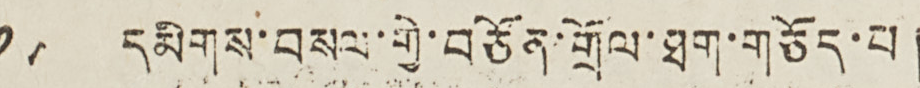༡༥ དམིགས་བསལ་གྱི་བཅོན་གྲོལ་ཐག་གཅོད་པ།
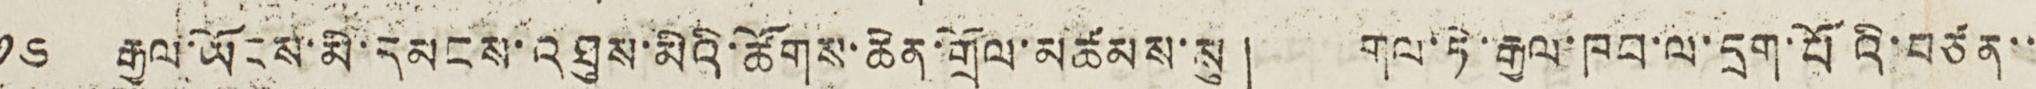༡༦ རྒྱལ་ཡོངས་མི་དམངས་འཐུས་མིའི་ཚོགས་ཆེན་གྲོལ་མཚམས་སུ། གལ་ཏེ་རྒྱལ་ཁབ་ལ་དྲག་པོའི་བཙན་་་
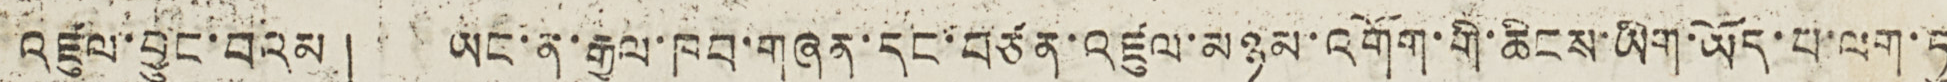འཛུལ་བྱུང་བའམ། ཡང་ན་རྒྱལ་ཁབ་གཞན་དང་བཙན་འཛུལ་མཉམ་འགོག་གི་ཆིངས་ཡིག་ཡོད་པ་ལག་ཏུ
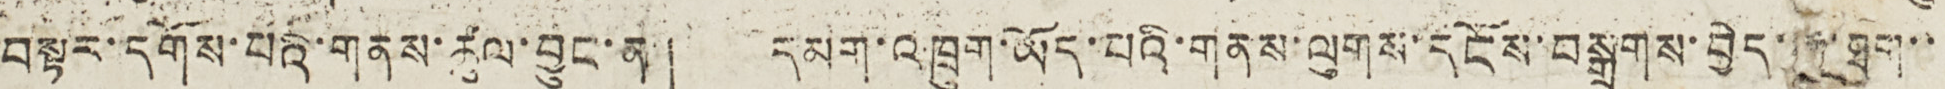བསྟར་དགོས་པའི་གནས་ཚུལ་བྱུང་ན། དམག་འཁྲུག་ཡོད་པའི་གནས་ལུགས་དངོས་བསྒྲགས་བྱེད་ ་ཐག་་
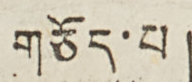གཅོད་པ།
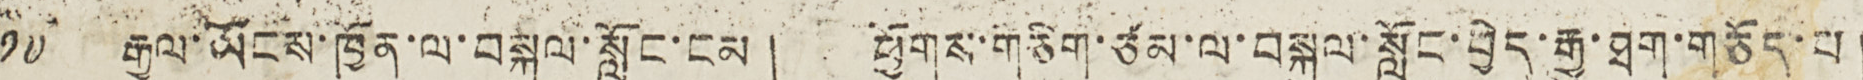༡༧ རྒྱལ་ཡོངས་ཁྱོན་ལ་བསྐུལ་སློང་ངམ། ཕྱོགས་གཅིག་ཙམ་ལ་བསྐུལ་སློང་བྱེད་རྒྱུ་ཐག་གཅོད་པ།
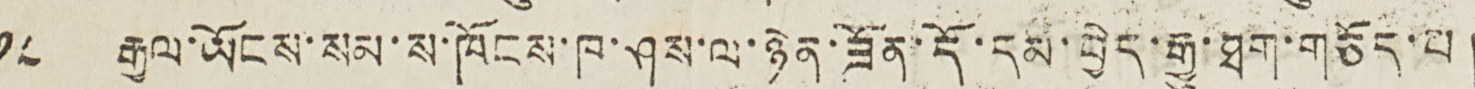༡༨ རྒྱལ་ཡོངས་སམ་ས་ཁོངས་ཁ་ཤས་ལ་ཉེན་ཟོན་དོ་དམ་བྱེད་རྒྱུ་ཐག་གཅོད་པ།
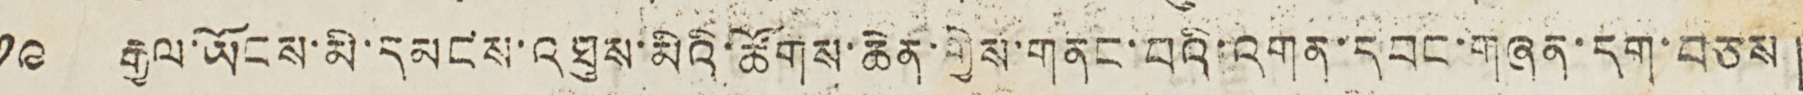༡༩ རྒྱལ་ཡོངས་མི་དམངས་འཐུས་མིའི་ཚོགས་ཆེན་གྱིས་གནང་བའི་འགན་དབང་གཞན་དག་བཅས།
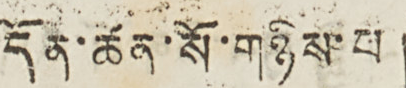དོན་ཚན་སོ་གཉིས་པ།
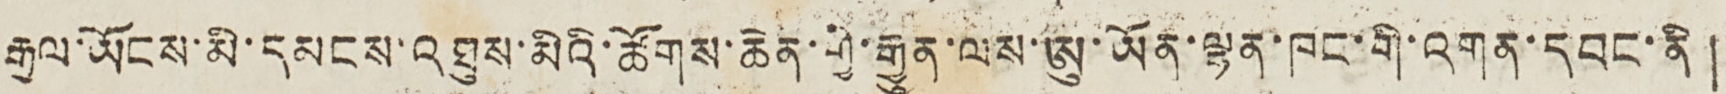རྒྱལ་ཡོངས་མི་དམངས་འཐུས་མིའི་ཚོགས་ཆེན་གྱི་རྒྱུན་ལས་ཨུ་ཡོན་ལྷན་ཁང་གི་འགན་དབང་ནི།
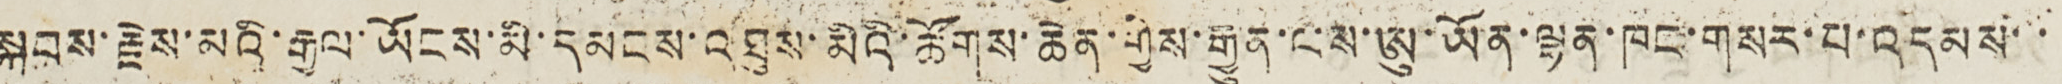སྐབས་རྗེས་མའི་རྒྱལ་ཡོངས་མི་དམངས་འཐུས་མིའི་ཚོགས་ཆེན་གྱིས་རྒྱུན་ལས་ཨུ་ཡོན་ལྷན་ཁང་གསར་པ་འདམས་་
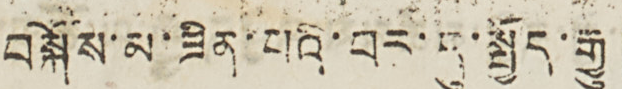བསྐོས་མ་ཟིན་པའི་བར་དུ་སྤྱོད་རྒྱུ།
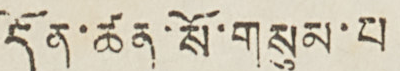དོན་ཚན་སོ་གསུམ་པ།
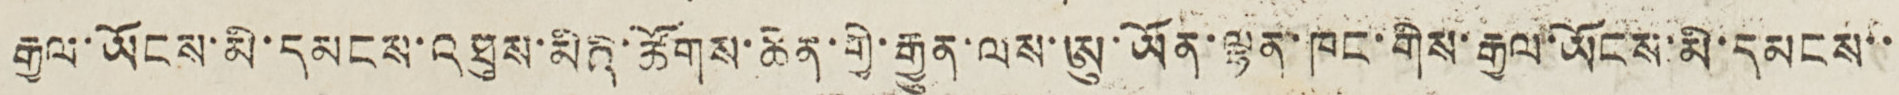རྒྱལ་ཡོངས་མི་དམངས་འཐུས་མིའི་ཚོགས་ཆེན་གྱི་རྒྱུན་ལས་ཨུ་ཡོན་ལྷན་ཁང་གིས་རྒྱལ་ཡོངས་མི་དམངས་་
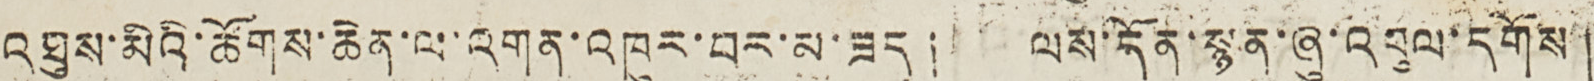འཐུས་མིའི་ཚོགས་ཆེན་ལ་འགན་འཁུར་བར་མ་ཟད། ལས་དོན་སྙན་ཞུ་འབུལ་དགོས།
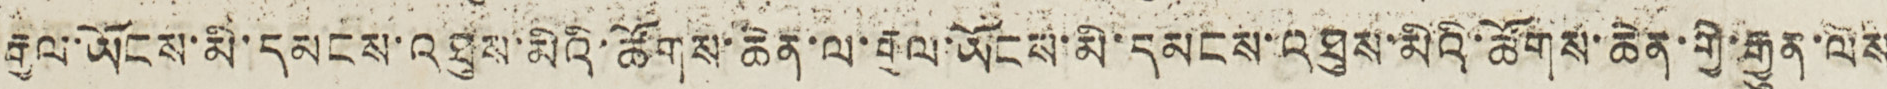རྒྱལ་ཡོངས་མི་དམངས་འཐུས་མིའི་ཚོགས་ཆེན་ལ་རྒྱལ་ཡོངས་མི་དམངས་འཐུས་མིའི་ཚོགས་ཆེན་གྱི་རྒྱུན་ལས
